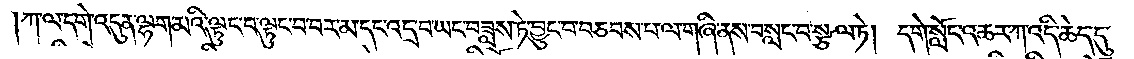ཀ་ལ་དགེ་འདུན་ལྷག་མའི་ལྟུང་བ་ལྟུང་བ་བར་མ་དང་འདྲ་བ་ཡང་བཟླས་ཏེ་བྱུང་བ་བཅབས་པ་ལ་གཞི་ནས་བསླང་བ་སྩལ་ཏེ། དགེ་སློང་འཆར་ཀ་འདི་ཆེད་དུ་
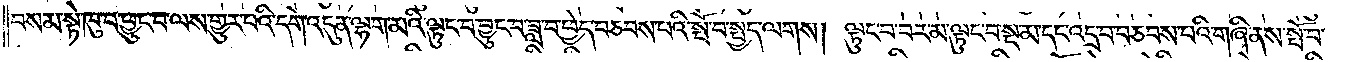བསམ་སྟེ་ཁུ་བ་ཕྱུང་བ་ལས་གྱུར་པའི་དགེ་འདུན་ལྷག་མའི་ལྟུང་བ་བྱུང་བ་ཟླ་བ་ཕྱེད་བཅབས་པའི་སྤོ་བ་སྤྱད་ལགས། ལྟུང་བ་བར་མ་ལྟུང་བ་སྔ་མ་དང་འདྲ་བ་བཅབས་པའི་གཞི་ནས་སྤོ་བ་
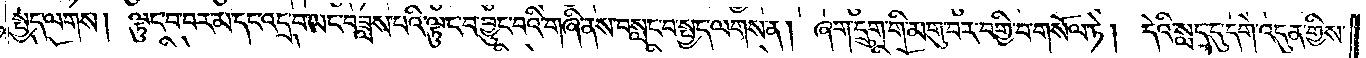སྤྱད་ལགས། ལྟུང་བ་བར་མ་དང་འདྲ་བ་ཡང་བཟླས་པའི་ལྟུང་བ་བྱུང་བའི་གཞི་ནས་བསླང་བ་སྤྱད་ལགས་ན། ཞག་དྲུག་གི་མགུ་བར་བགྱི་བ་གསོལ་ཏེ། དེའི་སླད་དུ་དགེ་འདུན་གྱིས་
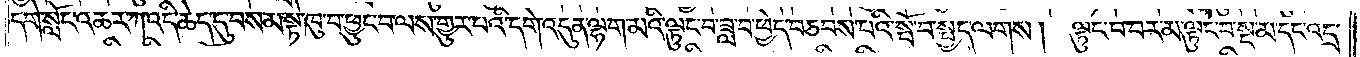དགེ་སློང་འཆར་ཀ་འདི་ཆེད་དུ་བསམ་སྟེ་ཁུ་བ་ཕྱུང་བ་ལས་གྱུར་པའི་དགེ་འདུན་ལྷག་མའི་ལྟུང་བ་ཟླ་བ་ཕྱེད་བཅབས་པའི་སྤོ་བ་སྤྱད་ལགས། ལྟུང་བ་བར་མ་ལྟུང་བ་སྔ་མ་དང་འདྲ་
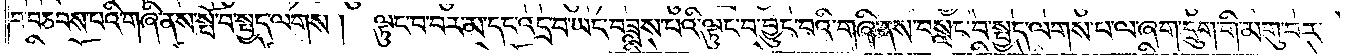བ་བཅབས་པའི་གཞི་ནས་སྤོ་བ་སྤྱད་ལགས། ལྟུང་བ་བར་མ་དང་འདྲ་བ་ཡང་བཟླས་པའི་ལྟུང་བ་བྱུང་བའི་གཞི་ནས་བསླང་བ་སྤྱད་ལགས་པ་ལ་ཞག་དྲུག་གི་མགུ་བར་
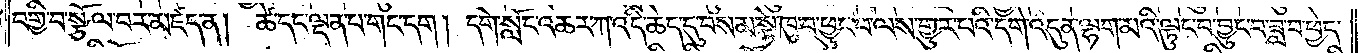བགྱི་བ་སྩོལ་བར་མཛད་ན། ཚེ་དང་ལྡན་པ་གང་དག། དགེ་སློང་འཆར་ཀ་འདི་ཆེད་དུ་བསམ་སྟེ་ཁུ་བ་ཕྱུང་བ་ལས་གྱུར་པའི་དགེ་འདུན་ལྷག་མའི་ལྟུང་བ་བྱུང་བ་ཟླ་བ་ཕྱེད་
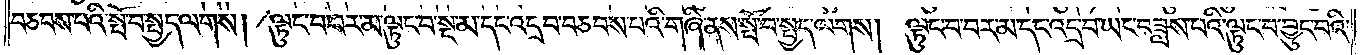བཅབས་པའི་སྤོ་བ་སྤྱད་ལགས། ལྟུང་བ་བར་མ་ལྟུང་བ་སྔ་མ་དང་འདྲ་བ་བཅབས་པའི་གཞི་ནས་སྤོ་བ་སྤྱད་ལགས། ལྟུང་བ་བར་མ་དང་འདྲ་བ་ཡང་བཟླས་པའི་ལྟུང་བ་བྱུང་བའི་
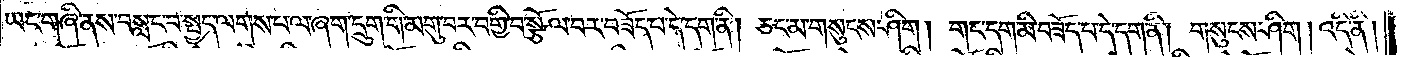ཡང་གཞི་ནས་བསླང་བ་སྤྱད་ལགས་པ་ལ་ཞག་དྲུག་གི་མགུ་བར་བགྱི་བ་སྩོལ་བར་བཟོད་པ་དེ་དག་ནི། ཅང་མ་གསུངས་ཤིག། གང་དག་མི་བཟོད་པ་དེ་དག་ནི། གསུངས་ཤིག། འདི་ནི།
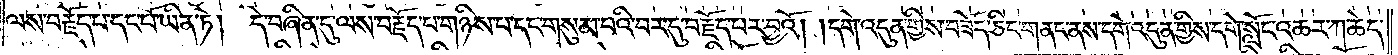ལས་བརྗོད་པ་དང་པོ་ཡིན་ཏེ། དེ་བཞིན་དུ་ལས་བརྗོད་པ་གཉིས་པ་དང་གསུམ་པའི་བར་དུ་བརྗོད་པར་བྱའོ། །དགེ་འདུན་གྱིས་བཟོད་ཅིང་གནང་ནས་དགེ་འདུན་གྱིས་དགེ་སློང་འཆར་ཀ་ཆེད་
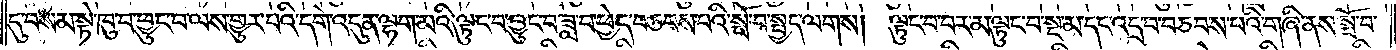དུ་བསམ་སྟེ་ཁུ་བ་ཕྱུང་བ་ལས་གྱུར་པའི་དགེ་འདུན་ལྷག་མའི་ལྟུང་བ་བྱུང་བ་ཟླ་བ་ཕྱེད་བཅབས་པའི་སྤོ་བ་སྤྱད་ལགས། ལྟུང་བ་བར་མ་ལྟུང་བ་སྔ་མ་དང་འདྲ་བ་བཅབས་པའི་གཞི་ནས་སྤོ་བ་
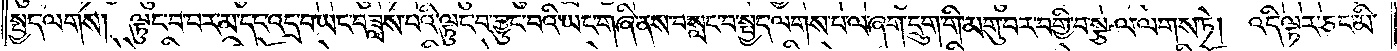སྤྱད་ལགས། ལྟུང་བ་བར་མ་དང་འདྲ་བ་ཡང་བཟླས་པའི་ལྟུང་བ་བྱུང་བའི་ཡང་གཞི་ནས་བསླང་བ་སྤྱད་ལགས་པ་ལ་ཞག་དྲུག་གི་མགུ་བར་བགྱི་བ་སྩལ་ལགས་ཏེ། འདི་ལྟར་ཅང་མི་
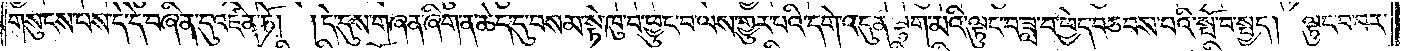གསུངས་པས་དེ་དེ་བཞིན་དུ་འཛིན་ཏོ། །དེ་དུས་གཞན་ཞིག་ན་ཆེད་དུ་བསམ་སྟེ་ཁུ་བ་ཕྱུང་བ་ལས་གྱུར་པའི་དགེ་འདུན་ལྷག་མའི་ལྟུང་བ་ཟླ་བ་ཕྱེད་བཅབས་པའི་སྤོ་བ་སྤྱད། ལྟུང་བ་བར་
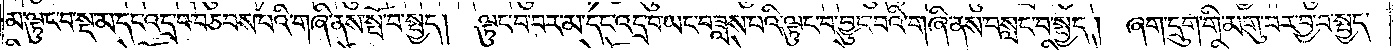མ་ལྟུང་བ་སྔ་མ་དང་འདྲ་བ་བཅབས་པའི་གཞི་ནས་སྤོ་བ་སྤྱད། ལྟུང་བ་བར་མ་དང་འདྲ་བ་ཡང་བཟླས་པའི་ལྟུང་བ་བྱུང་བའི་གཞི་ནས་བསླང་བ་སྤྱད། ཞག་དྲུག་གི་མགུ་བར་བྱ་བ་སྤྱད་
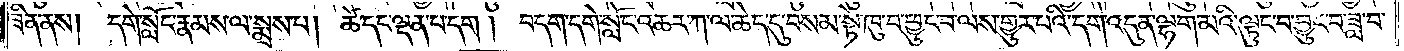ཟིན་ནས། དགེ་སློང་རྣམས་ལ་སྨྲས་པ། ཚེ་དང་ལྡན་པ་དག། བདག་དགེ་སློང་འཆར་ཀ་ལ་ཆེད་དུ་བསམ་སྟེ་ཁུ་བ་ཕྱུང་བ་ལས་གྱུར་པའི་དགེ་འདུན་ལྷག་མའི་ལྟུང་བ་བྱུང་བ་ཟླ་བ་
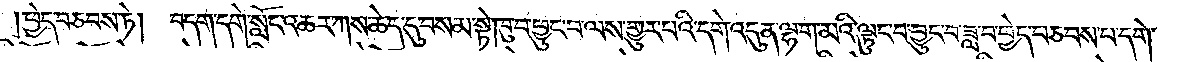ཕྱེད་བཅབས་ཏེ། བདག་དགེ་སློང་འཆར་ཀས་ཆེད་དུ་བསམ་སྟེ་ཁུ་བ་ཕྱུང་བ་ལས་གྱུར་པའི་དགེ་འདུན་ལྷག་མའི་ལྟུང་བ་བྱུང་བ་ཟླ་བ་ཕྱེད་བཅབས་པ་དགེ་
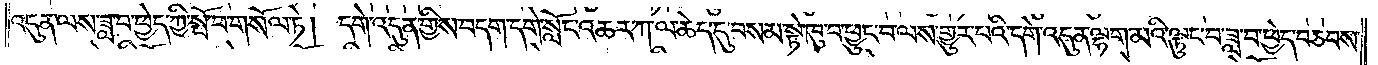འདུན་ལས་ཟླ་བ་ཕྱེད་ཀྱི་སྤོ་བ་གསོལ་ཏེ། དགེ་འདུན་གྱིས་བདག་དགེ་སློང་འཆར་ཀ་ལ་ཆེད་དུ་བསམ་སྟེ་ཁུ་བ་ཕྱུང་བ་ལས་གྱུར་པའི་དགེ་འདུན་ལྷག་མའི་ལྟུང་བ་ཟླ་བ་ཕྱེད་བཅབས་
